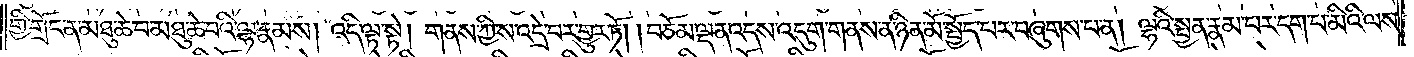གྱི་གྲོང་ན་མཐུ་ཆེ་བ་མཐུ་ཆེ་བའི་ལྷ་རྣམས། འདི་ལྟ་སྟེ། གནས་ཀྱི་ས་འདྲེ་བར་གྱུར་ཏོ། །བཅོམ་ལྡན་འདས་འདུག་གནས་ན་ཉིན་མོ་སྤྱོད་པར་བཞུགས་པ་ན། ལྷའི་སྤྱན་རྣམ་པར་དག་པ་མིའི་ལས་
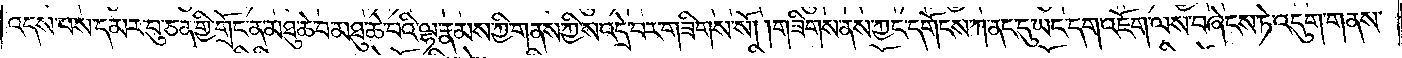འདས་པས་དམར་བུ་ཅན་གྱི་གྲོང་ན་མཐུ་ཆེ་བ་མཐུ་ཆེ་བའི་ལྷ་རྣམས་ཀྱི་གནས་ཀྱི་ས་འདྲེ་བར་གཟིགས་སོ། །གཟིགས་ནས་ཀྱང་དགོངས་ཀ་ནང་དུ་ཡང་དག་འཇོག་ལས་བཞེངས་ཏེ་འདུག་གནས་
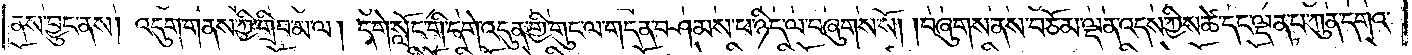ནས་བྱུང་ནས། འདུག་གནས་ཀྱི་གྲིབ་མ་ལ། དགེ་སློང་གི་དགེ་འདུན་གྱི་གུང་ལ་གདན་བཤམས་པ་ཉིད་ལ་བཞུགས་སོ། །བཞུགས་ནས་བཅོམ་ལྡན་འདས་ཀྱིས་ཚེ་དང་ལྡན་པ་ཀུན་དགའ་
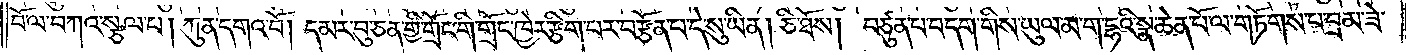བོ་ལ་བཀའ་སྩལ་པ། ཀུན་དགའ་བོ། །དམར་བུ་ཅན་གྱི་གྲོང་གི་གྲོང་ཁྱེར་རྩིག་པར་བརྩོན་པ་དེ་སུ་ཡིན། ཅི་ཐོས། བཙུན་པ་བདག་གིས་ཡུལ་མ་ག་དྷའི་སྣ་ཆེན་པོ་ལ་གཏོགས་པ་བྲམ་ཟེ་
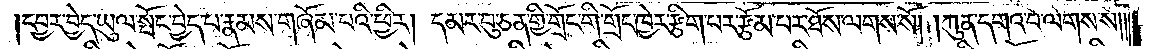དབྱར་བྱེད་ཡུལ་སྤོང་བྱེད་པ་རྣམས་གཞོམ་པའི་ཕྱིར། དམར་བུ་ཅན་གྱི་གྲོང་གི་གྲོང་ཁྱེར་རྩིག་པར་རྩོམ་པར་ཐོས་ལགས་སོ། །ཀུན་དགའ་བོ་ལེགས་སོ༎
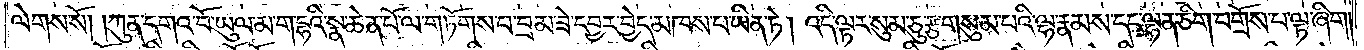ལེགས་སོ། །ཀུན་དགའ་བོ་ཡུལ་མ་ག་དྷའི་སྣ་ཆེན་པོ་ལ་གཏོགས་པ་བྲམ་ཟེ་དབྱར་བྱེད་མཁས་པ་ཡིན་ཏེ། འདི་ལྟར་སུམ་ཅུ་རྩ་གསུམ་པའི་ལྷ་རྣམས་དང་ལྷན་ཅིག་བགྲོས་པ་ལྟ་ཞིག་
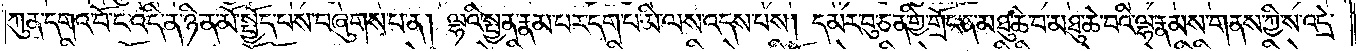ཀུན་དགའ་བོ་ང་འདི་ན་ཉིན་མོ་སྤྱོད་པས་བཞུགས་པ་ན། ལྷའི་སྤྱན་རྣམ་པར་དག་པ་མི་ལས་འདས་པས། དམར་བུ་ཅན་གྱི་གྲོང་ན་མཐུ་ཆེ་བ་མཐུ་ཆེ་བའི་ལྷ་རྣམས་གནས་ཀྱི་ས་འདྲེ་
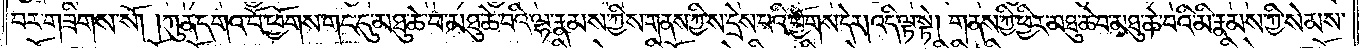བར་གཟིགས་སོ། །ཀུན་དགའ་བོ་ཕྱོགས་གང་དུ་མཐུ་ཆེ་བ་མཐུ་ཆེ་བའི་ལྷ་རྣམས་ཀྱིས་གནས་ཀྱི་ས་དྲེས་པའི་ཕྱོགས་དེར། འདི་ལྟ་སྟེ། གནས་ཀྱི་ཕྱིར་མཐུ་ཆེ་བ་མཐུ་ཆེ་བའི་མི་རྣམས་ཀྱི་སེམས་
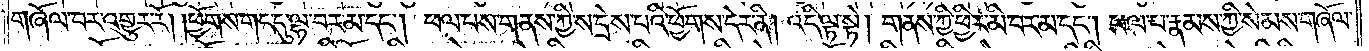གཞོལ་བར་འགྱུར་རོ། །ཕྱོགས་གང་དུ་ལྷ་བར་མ་དང༌། ཕལ་པས་གནས་ཀྱི་ས་དྲེས་པའི་ཕྱོགས་དེར་ནི། འདི་ལྟ་སྟེ། གནས་ཀྱི་ཕྱིར་མི་བར་མ་དང༌། ཕལ་པ་རྣམས་ཀྱི་སེམས་གཞོལ་
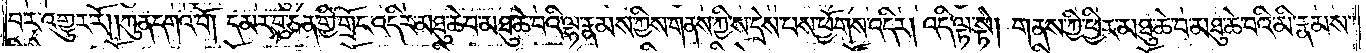བར་འགྱུར་རོ། །ཀུན་དགའ་བོ། དམར་བུ་ཅན་གྱི་གྲོང་འདིར་མཐུ་ཆེ་བ་མཐུ་ཆེ་བའི་ལྷ་རྣམས་ཀྱིས་གནས་ཀྱི་ས་དྲེས་པས་ཕྱོགས་འདིར། འདི་ལྟ་སྟེ། གནས་ཀྱི་ཕྱིར་མཐུ་ཆེ་བ་མཐུ་ཆེ་བའི་མི་རྣམས་
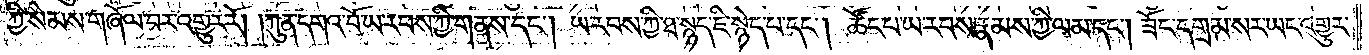ཀྱི་སེམས་གཞོལ་བར་འགྱུར་རོ། །ཀུན་དགའ་བོ་ཡ་རབས་ཀྱི་གནས་དང༌། ཡ་རབས་ཀྱི་ཐ་སྙད་ཇི་སྙེད་པ་དང༌། ཚོང་པ་ཡ་རབས་རྣམས་ཀྱི་ལམ་དང༌། ཟོང་དགྲམ་སར་ཡང་འགྱུར་
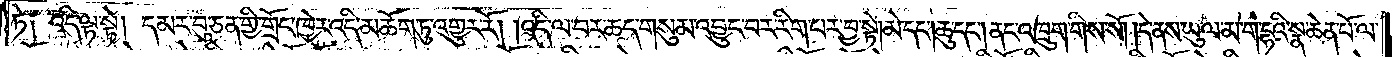ཏེ༑ འདི་ལྟ་སྟེ། དམར་བུ་ཅན་གྱི་གྲོང་ཁྱེར་འདི་མཆོག་ཏུ་འགྱུར་རོ། །འདི་ལ་བར་ཆད་གསུམ་འབྱུང་བར་རིག་པར་བྱ་སྟེ། མེ་དང༌། ཆུ་དང༌། ནང་འཁྲུག་གིས་སོ། །དེ་ནས་ཡུལ་མ་ག་དྷའི་སྣ་ཆེན་པོ་ལ་
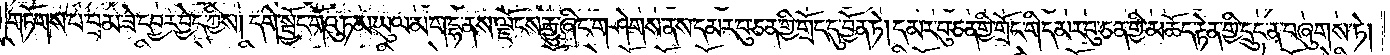གཏོགས་པ་བྲམ་ཟེ་དབྱར་བྱེད་ཀྱིས། དགེ་སྦྱོང་གོའུ་ཏ་མ་ཡུལ་མ་ག་དྷ་ནས་ལྗོངས་རྒྱུ་ཞིང་གཤེགས་ནས་དམར་བུ་ཅན་གྱི་གྲོང་དུ་བྱོན་ཏེ། དམར་བུ་ཅན་གྱི་གྲོང་གི་དམར་བུ་ཅན་གྱི་མཆོད་རྟེན་གྱི་དྲུང་ན་བཞུགས་ཏེ།
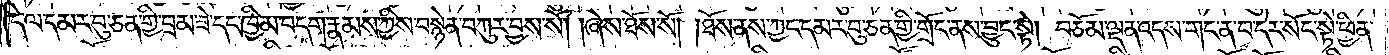དེ་ལ་དམར་བུ་ཅན་གྱི་བྲམ་ཟེ་དང་ཁྱིམ་བདག་རྣམས་ཀྱིས་བསྙེན་བཀུར་བྱས་སོ། །ཞེས་ཐོས་སོ། །ཐོས་ནས་ཀྱང་དམར་བུ་ཅན་གྱི་གྲོང་ནས་བྱུང་སྟེ། བཅོམ་ལྡན་འདས་གང་ན་བ་དེར་སོང་སྟེ་ཕྱིན་
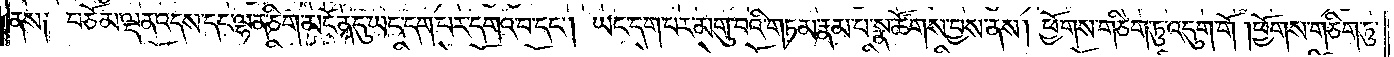ནས༑ བཅོམ་ལྡན་འདས་དང་ལྷན་ཅིག་མངོན་དུ་ཡང་དག་པར་དགའ་བ་དང༌། ཡང་དག་པར་མགུ་བའི་གཏམ་རྣམ་པ་སྣ་ཚོགས་བྱས་ནས། ཕྱོགས་གཅིག་ཏུ་འདུག་གོ །ཕྱོགས་གཅིག་ཏུ་
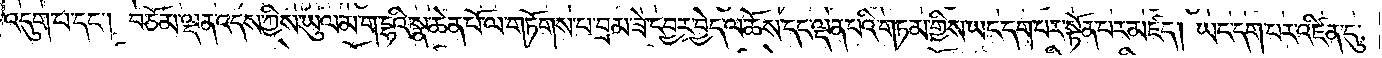འདུག་པ་དང༌། བཅོམ་ལྡན་འདས་ཀྱིས་ཡུལ་མ་ག་དྷའི་སྣ་ཆེན་པོ་ལ་གཏོགས་པ་བྲམ་ཟེ་དབྱར་བྱེད་ལ་ཆོས་དང་ལྡན་པའི་གཏམ་གྱིས་ཡང་དག་པར་སྟོན་པར་མཛད། ཡང་དག་པར་འཛིན་དུ་
